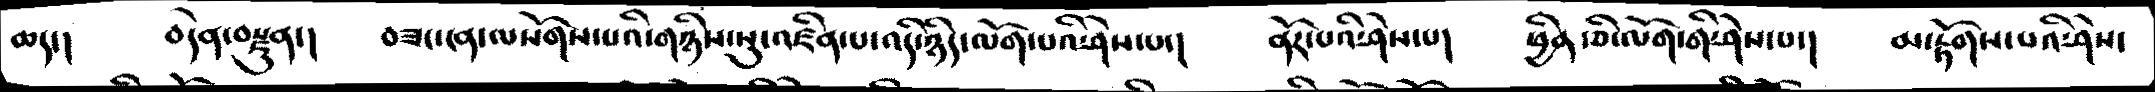ཆད་།   བདེན་བརྫུན་།   བཟང་ངན་ལསོགས་པའི་གཉིས་སུ་འཛིན་པ་འདི་ཉིད་ལོག་པའི་ཤེས་པ་།    ནོར་པའི་ཤེས་པ།   ཕྱིན་ཅི་ལོག་གི་ཤེས་པ་།   མ་རྟོགས་པའི་ཤེས་
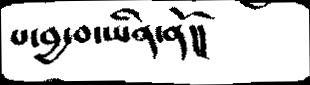པ་བྱ་བ་ཡིན་ནོ།།
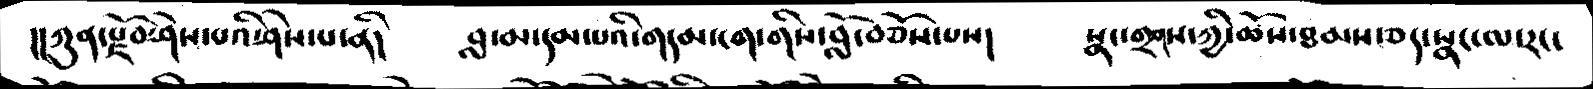།།ཀུན་རྫོབ་ཤེས་པའི་ཤེས་པ་ནི།   བླ་མ་དམ་པའི་གདམ་ངག་གིས་བློ་བཅོས་པས།   སྣང་གྲགས་ཀྱི་ཆོས་ཐམས་ཅད་སྣང་ལ་རང་
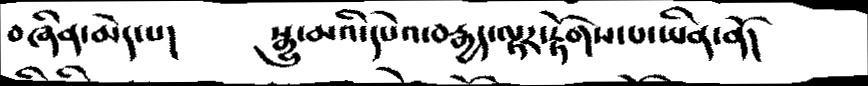བཞིན་མེད་པ།   སྒྱུ་མའི་དཔེའ་བརྒྱད་ལྟར་རྟོགས་པ་ཡིན་ནོ།
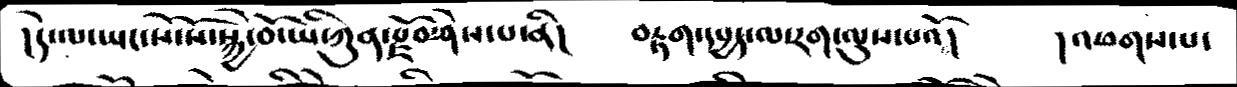།དེ་ལ་ཡང་སོ་སོ་སྐྱེ་བོ་ཡི་ཀུན་རྫོབ་ཤེས་པ་ནི།   བརྟག་དཔྱད་ལ་རག་ལུས་པའོ།    །འཕགས་པ་
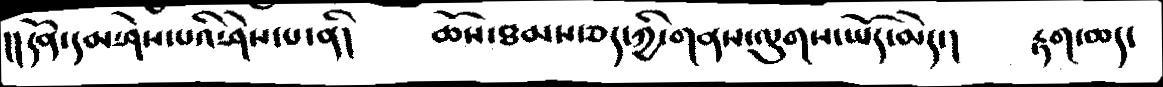།།དོན་དམ་ཤེས་པའི་ཤེས་པ་ནི།   ཆོས་ཐམས་ཅད་ཀྱི་གནས་ལུགས་ཡོད་མེད་།   རྟག་ཆད་
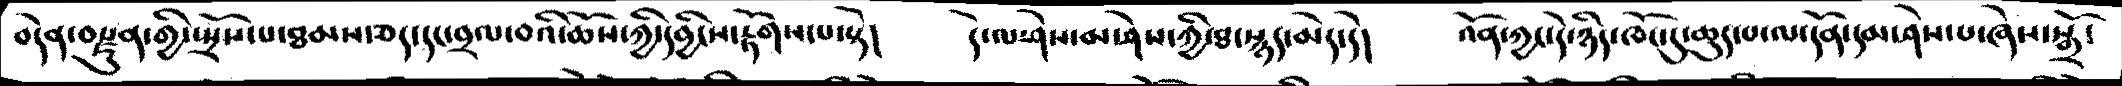བདེན་བརྫུན་གྱི་སྤྲོས་པ་ཐམས་ཅད་དང་བྲལ་བའི་ཆོས་ཀྱི་དབྱིངས་རྟོགས་པ་སྟེ།   དེ་ལ་ཤེས་མ་ཤེས་ཀྱི་ཐ་སྙད་མེད་དེ།   འོན་ཀྱང་དེ་ཉིད་ཁོང་དུ་ཆུད་པ་ལ་དོན་དམ་ཤེས་པ་ཞེས་སྒྲོ་
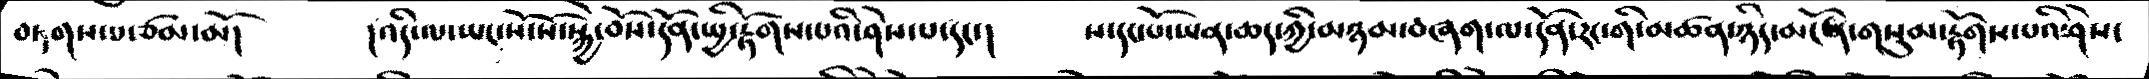བཏགས་པ་ཙམ་མོ།   །འདི་ལ་ཡང་སོ་སོ་སྐྱེ་བོས་དོན་སྤྱི་རྟོགས་པའི་ཤེས་པ་དང་།    ས་དང་པོ་ཡན་ཆད་ཀྱི་མཉམ་བཞག་ལ་དོན་རང་གི་མཚན་ཉིད་མངོན་གསུམ་རྟོགས་པའི་ཤེས་
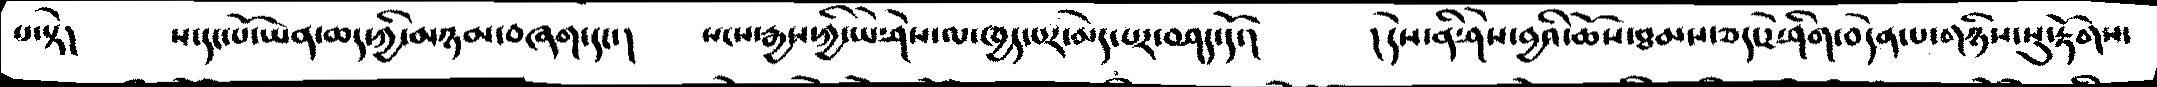པ་སྟེ།   ས་དང་པོ་ཡན་ཆད་ཀྱི་མཉམ་བཞག་དང་།   སངས་རྒྱས་ཀྱི་ཡེ་ཤེས་ལ་ཁྱད་པར་མེད་པར་བཤད་དོ་།   །དེས་ནི་ཤེས་བྱའི་ཆོས་ཐམས་ཅད་རེ་ཤིག་བདེན་པ་གཉིས་སུ་རྟོགས་
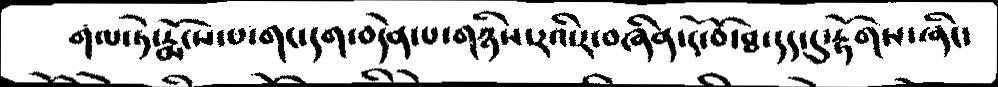གལ་ཏེ་རྨོངས་པ་གང་དག་བདེན་པ་གཉིས་རའི་ར་བཞིན་ངོ་བོ་ཐ་དད་དུ་རྟོགས་ཞིང་
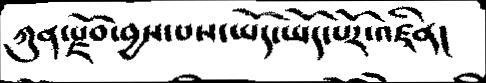ཀུན་རྫོབ་བྱས་པས་ཡོད་ཡོད་པོར་འཛིན།
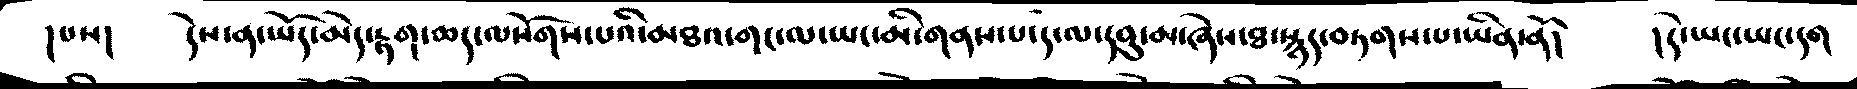།པས།    དེས་ན་ཡོད་མེད་རྟག་ཆད་ལསོགས་པའི་མཐའ་གང་ལ་ཡང་མི་གནས་པ་ད་ལ་དབུ་མ་ཞེས་ཐ་སྙད་བཏགས་པ་ཡིན་ནོ།   །དེ་ཡང་ཡང་དག
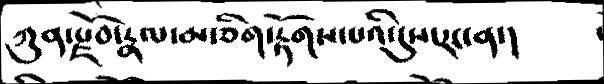ཀུན་རྫོབ་རྣལ་མ་ཅིག་རྟོགས་པའི་དུས་རང་ན་།
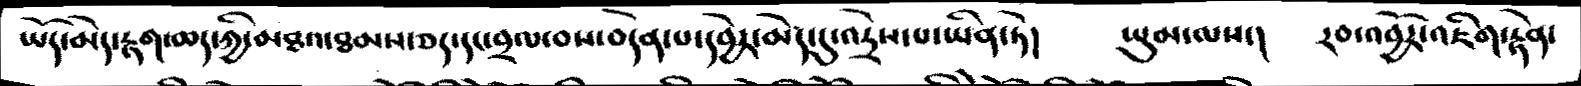ཡོད་མེད་རྟག་ཆད་ཀྱི་མཐའ་ཐམས་ཅད་དང་བྲལ་བས་བདེན་པ་དབྱེར་མེད་དུ་འདྲེས་པ་ཡིན་ཏེ།   ཡུམ་ལས་།   རབ་འབྱོར་འཇིག་རྟེན་
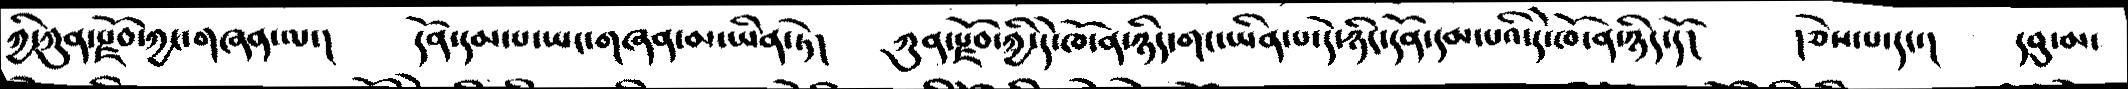ཀྱི་ཀུན་རྫོབ་ཀྱང་གཞན་ལ་།   དོན་དམ་པ་ཡང་གཞན་མ་ཡིན་ཏེ།   ཀུན་རྫོབ་ཀྱི་དེ་ཁོ་ན་ཉིད་གང་ཡིན་པ་དེ་ཉིད་དོན་དམ་པའི་དེ་ཁོ་ན་ཉིད་དོ།    །ཅེས་པ་དང་།   དབུ་མ་
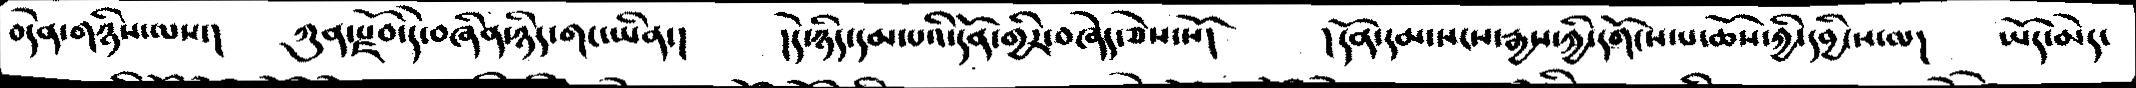བདེན་གཉིས་ལས།   ཀུན་རྫོབ་དེ་བཞིན་ཉིད་གང་ཡིན་།   །དེ་ཉིད་དམ་པའི་དོན་གྱིར་བཞེད་ཅེས་སོ།   །དོན་དམ་སངས་རྒྱས་ཀྱི་དགོངས་པ་ཆོས་ཀྱི་དབྱིངས་ལ།   ཡོད་མེད་
